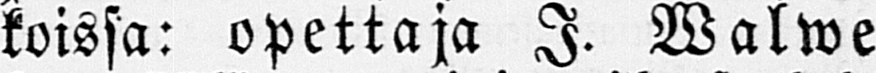koissa: opettaja J. Walwe
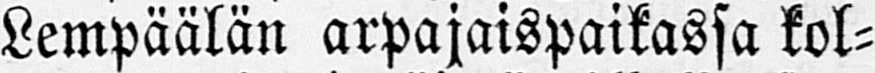Lempäälän arpajaispaikassa kol-
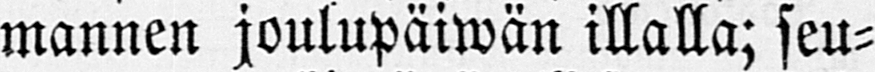mannen joulupäiwän illalla; seu-
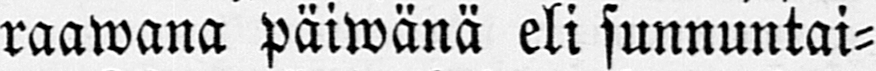raawana päiwänä eli sunnuntai-
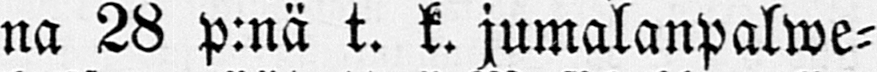na 28 p:nä t. k. jumalanpalwe-
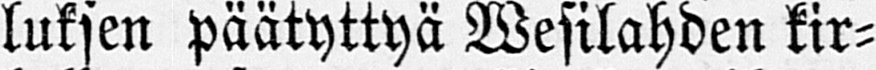luksen päätyttyä Wesilahden kir-
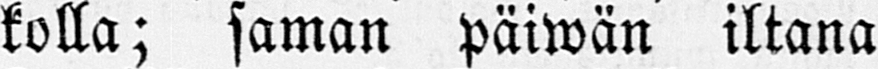kolla; saman päiwän iltana
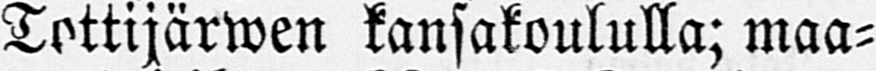Tottijärwen kansakoululla; maa-
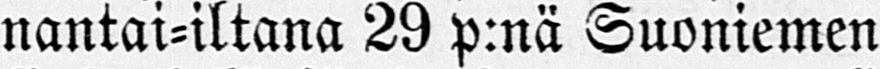nantai-iltana 29 p:nä Suoniemen
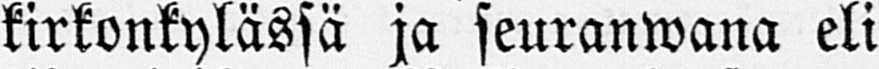kirkonkylässä ja seuranwana eli
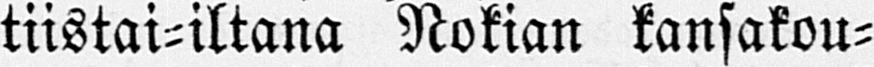tiistai-iltana Nokian kansakou-
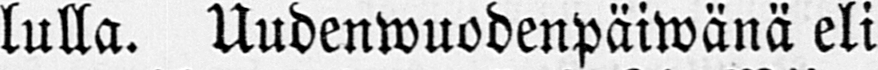lulla. Uudenwuodenpäiwänä eli
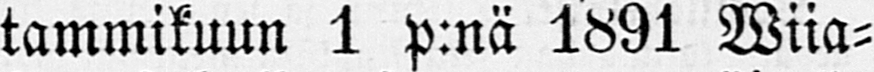tammikuun 1 p:nä 1891 Wiia-
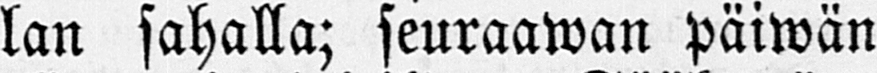lan sahalla; seuraawan päiwän
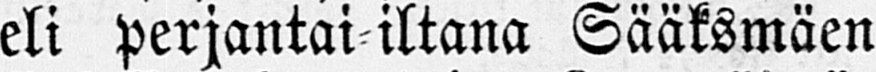eli perjantai-iltana Sääksmäen
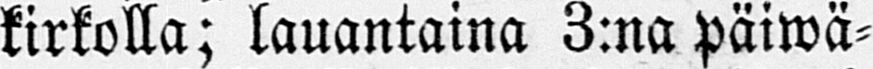kirkolla; lauantaina 3:na päiwä-
